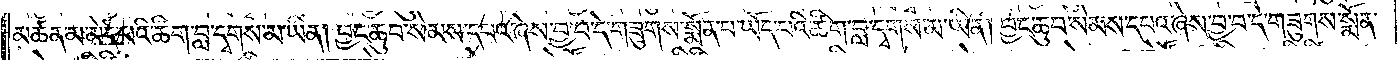མཚན་མ་མེད་པའི་ཚིག་བླ་དྭགས་མ་ཡིན། བྱང་ཆུབ་སེམས་དཔའ་ཞེས་བྱ་བ་དེ་གཟུགས་སྨོན་པ་ཡོད་པའི་ཚིག་བླ་དྭགས་མ་ཡིན། བྱང་ཆུབ་སེམས་དཔའ་ཞེས་བྱ་བ་དེ་གཟུགས་སྨོན་
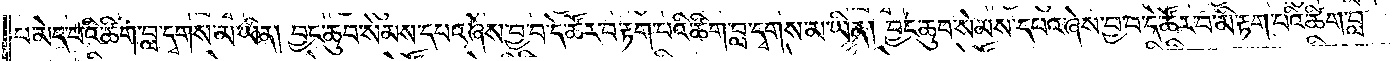པ་མེད་པའི་ཚིག་བླ་དྭགས་མ་ཡིན། བྱང་ཆུབ་སེམས་དཔའ་ཞེས་བྱ་བ་དེ་ཚོར་བ་རྟག་པའི་ཚིག་བླ་དྭགས་མ་ཡིན། བྱང་ཆུབ་སེམས་དཔའ་ཞེས་བྱ་བ་དེ་ཚོར་བ་མི་རྟག་པའི་ཚིག་བླ་
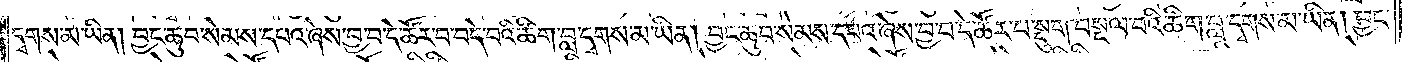དྭགས་མ་ཡིན། བྱང་ཆུབ་སེམས་དཔའ་ཞེས་བྱ་བ་དེ་ཚོར་བ་བདེ་བའི་ཚིག་བླ་དྭགས་མ་ཡིན། བྱང་ཆུབ་སེམས་དཔའ་ཞེས་བྱ་བ་དེ་ཚོར་བ་སྡུག་བསྔལ་བའི་ཚིག་བླ་དྭགས་མ་ཡིན། བྱང་
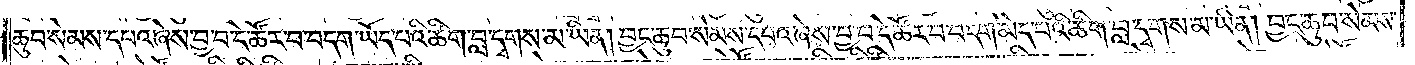ཆུབ་སེམས་དཔའ་ཞེས་བྱ་བ་དེ་ཚོར་བ་བདག་ཡོད་པའི་ཚིག་བླ་དྭགས་མ་ཡིན། བྱང་ཆུབ་སེམས་དཔའ་ཞེས་བྱ་བ་དེ་ཚོར་བ་བདག་མེད་པའི་ཚིག་བླ་དྭགས་མ་ཡིན། བྱང་ཆུབ་སེམས་
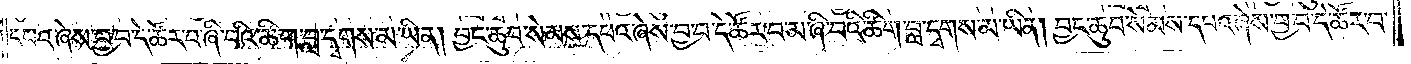དཔའ་ཞེས་བྱ་བ་དེ་ཚོར་བ་ཞི་བའི་ཚིག་བླ་དྭགས་མ་ཡིན། བྱང་ཆུབ་སེམས་དཔའ་ཞེས་བྱ་བ་དེ་ཚོར་བ་མ་ཞི་བའི་ཚིག་བླ་དྭགས་མ་ཡིན། བྱང་ཆུབ་སེམས་དཔའ་ཞེས་བྱ་བ་དེ་ཚོར་བ་
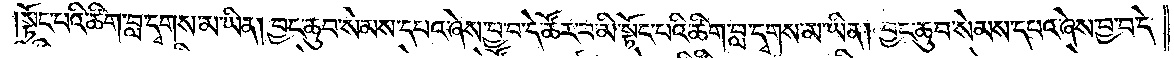སྟོང་པའི་ཚིག་བླ་དྭགས་མ་ཡིན། བྱང་ཆུབ་སེམས་དཔའ་ཞེས་བྱ་བ་དེ་ཚོར་བ་མི་སྟོང་པའི་ཚིག་བླ་དྭགས་མ་ཡིན། བྱང་ཆུབ་སེམས་དཔའ་ཞེས་བྱ་བ་དེ་
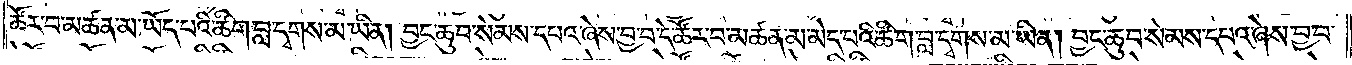ཚོར་བ་མཚན་མ་ཡོད་པའི་ཚིག་བླ་དྭགས་མ་ཡིན། བྱང་ཆུབ་སེམས་དཔའ་ཞེས་བྱ་བ་དེ་ཚོར་བ་མཚན་མ་མེད་པའི་ཚིག་བླ་དྭགས་མ་ཡིན། བྱང་ཆུབ་སེམས་དཔའ་ཞེས་བྱ་བ་
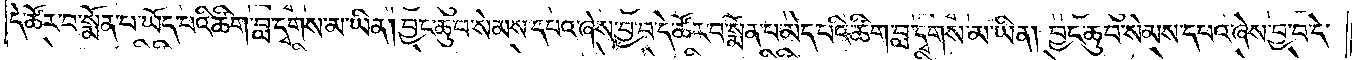དེ་ཚོར་བ་སྨོན་པ་ཡོད་པའི་ཚིག་བླ་དྭགས་མ་ཡིན། བྱང་ཆུབ་སེམས་དཔའ་ཞེས་བྱ་བ་དེ་ཚོར་བ་སྨོན་པ་མེད་པའི་ཚིག་བླ་དྭགས་མ་ཡིན། བྱང་ཆུབ་སེམས་དཔའ་ཞེས་བྱ་བ་དེ་
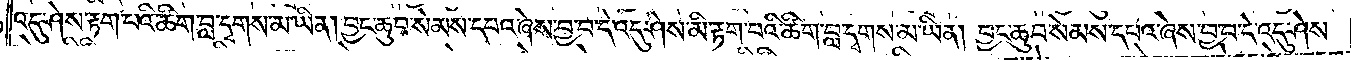འདུ་ཤེས་རྟག་པའི་ཚིག་བླ་དྭགས་མ་ཡིན། བྱང་ཆུབ་སེམས་དཔའ་ཞེས་བྱ་བ་དེ་འདུ་ཤེས་མི་རྟག་པའི་ཚིག་བླ་དྭགས་མ་ཡིན། བྱང་ཆུབ་སེམས་དཔའ་ཞེས་བྱ་བ་དེ་འདུ་ཤེས་
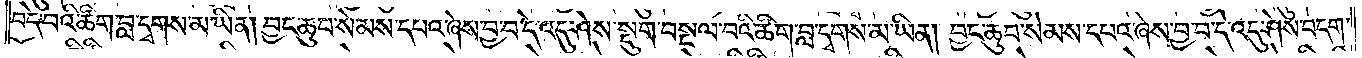བདེ་བའི་ཚིག་བླ་དྭགས་མ་ཡིན། བྱང་ཆུབ་སེམས་དཔའ་ཞེས་བྱ་བ་དེ་འདུ་ཤེས་སྡུག་བསྔལ་བའི་ཚིག་བླ་དྭགས་མ་ཡིན། བྱང་ཆུབ་སེམས་དཔའ་ཞེས་བྱ་བ་དེ་འདུ་ཤེས་བདག་
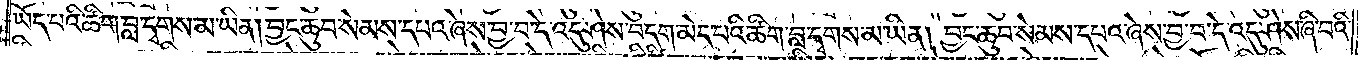ཡོད་པའི་ཚིག་བླ་དྭགས་མ་ཡིན། བྱང་ཆུབ་སེམས་དཔའ་ཞེས་བྱ་བ་དེ་འདུ་ཤེས་བདག་མེད་པའི་ཚིག་བླ་དྭགས་མ་ཡིན། བྱང་ཆུབ་སེམས་དཔའ་ཞེས་བྱ་བ་དེ་འདུ་ཤེས་ཞི་བའི་
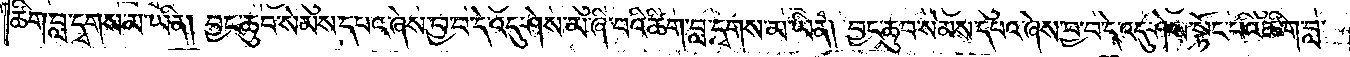ཚིག་བླ་དྭགས་མ་ཡིན། བྱང་ཆུབ་སེམས་དཔའ་ཞེས་བྱ་བ་དེ་འདུ་ཤེས་མ་ཞི་བའི་ཚིག་བླ་དྭགས་མ་ཡིན། བྱང་ཆུབ་སེམས་དཔའ་ཞེས་བྱ་བ་དེ་འདུ་ཤེས་སྟོང་པའི་ཚིག་བླ་
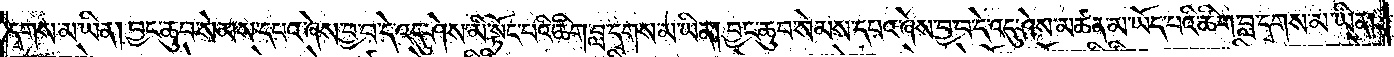དྭགས་མ་ཡིན། བྱང་ཆུབ་སེམས་དཔའ་ཞེས་བྱ་བ་དེ་འདུ་ཤེས་མི་སྟོང་པའི་ཚིག་བླ་དྭགས་མ་ཡིན། བྱང་ཆུབ་སེམས་དཔའ་ཞེས་བྱ་བ་དེ་འདུ་ཤེས་མཚན་མ་ཡོད་པའི་ཚིག་བླ་དྭགས་མ་ཡིན།
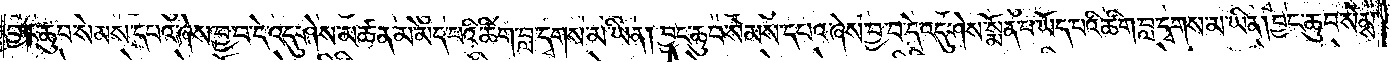བྱང་ཆུབ་སེམས་དཔའ་ཞེས་བྱ་བ་དེ་འདུ་ཤེས་མཚན་མ་མེད་པའི་ཚིག་བླ་དྭགས་མ་ཡིན། བྱང་ཆུབ་སེམས་དཔའ་ཞེས་བྱ་བ་དེ་འདུ་ཤེས་སྨོན་པ་ཡོད་པའི་ཚིག་བླ་དྭགས་མ་ཡིན། བྱང་ཆུབ་སེམས་
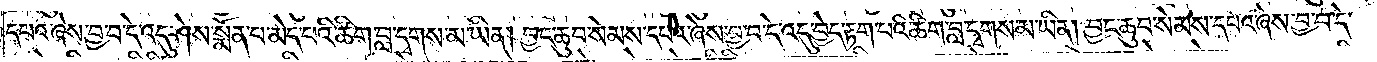དཔའ་ཞེས་བྱ་བ་དེ་འདུ་ཤེས་སྨོན་པ་མེད་པའི་ཚིག་བླ་དྭགས་མ་ཡིན། བྱང་ཆུབ་སེམས་དཔའ་ཞེས་བྱ་བ་དེ་འདུ་བྱེད་རྟག་པའི་ཚིག་བླ་དྭགས་མ་ཡིན། བྱང་ཆུབ་སེམས་དཔའ་ཞེས་བྱ་བ་དེ་
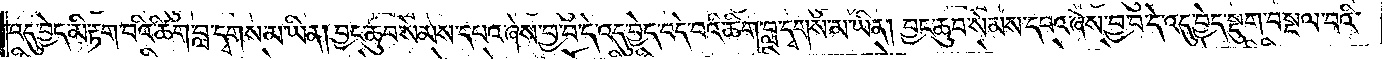འདུ་བྱེད་མི་རྟག་པའི་ཚིག་བླ་དྭགས་མ་ཡིན། བྱང་ཆུབ་སེམས་དཔའ་ཞེས་བྱ་བ་དེ་འདུ་བྱེད་བདེ་བའི་ཚིག་བླ་དྭགས་མ་ཡིན། བྱང་ཆུབ་སེམས་དཔའ་ཞེས་བྱ་བ་དེ་འདུ་བྱེད་སྡུག་བསྔལ་བའི་
